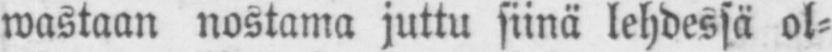wastaan nostama juttu siinä lehdessä ol-
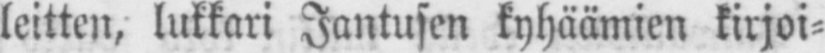leitten, lukkari Jantusen kyhäämien kirjoi-
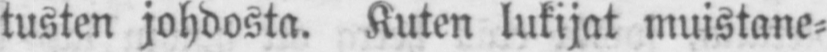tusten johdosta. Kuten lukijat muistane-
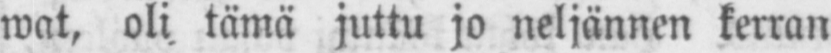wat, oli. tämä juttu jo neljännen kerran
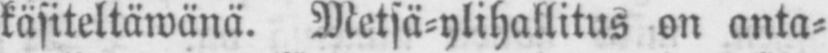käsiteltäwänä. Metsä-ylihallitus on anta-
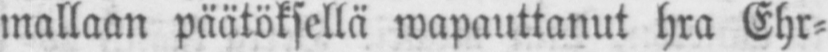mallaan päätöksellä wapauttanut hra Ehr-
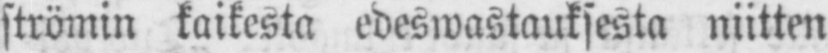strömin kaikesta edeswastauksesta niitten
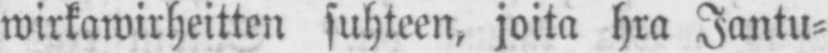wirkawirheitten suhteen, joita hra Jantu-
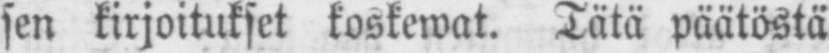sen kirjoitukset koskewat. Tätä päätöstä
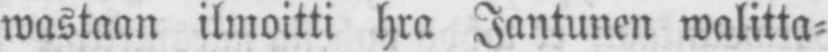wastaan ilmoitti hra Jantunen walitta-
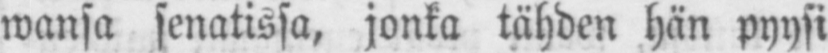wansa senatissa, jonka tähden hän pyysi
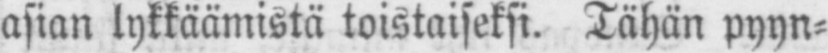asian lykkäämistä toistaiseksi. Tähän pyyn-
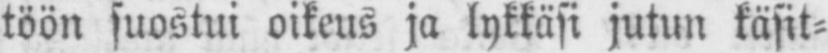töön suostui oikeus ja lykkäsi jutun käsit-
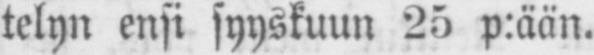telyn ensi syyskuun 25 p:ään.
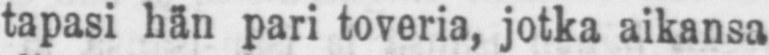Käytävällä tapasi hän pari toveria, jotka aikansa
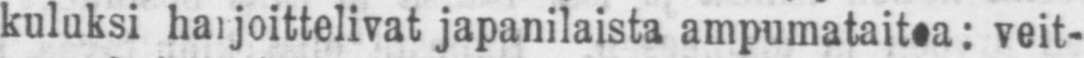kuluksi harjoittelivat japanilaista ampumataitoa: veit-
